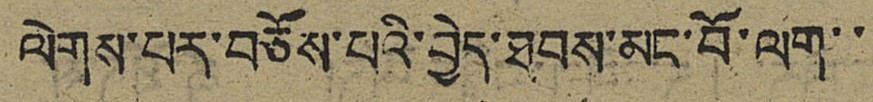ལེགས་པར་བཅོས་པའི་བྱེད་ཐབས་མང་བོ་ལག་་
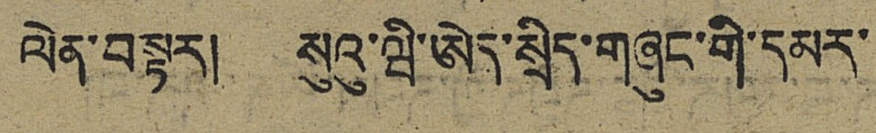ལེན་བསྟར། སུའུ་ཝི་ཨེད་སྲིད་གཞུང་གི་དམར་
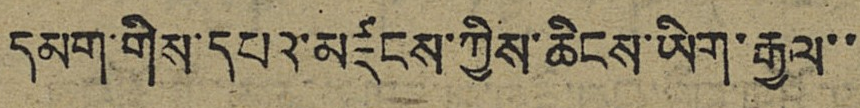དམག་གིས་དཔའ་མཛངས་ཀྱིས་ཆིངས་ཡིག་རྒྱལ་་
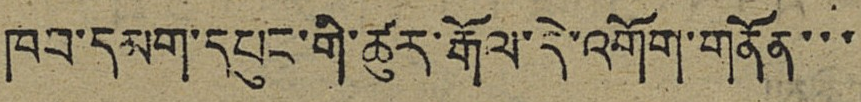ཁབ་དམག་དཔུང་གི་ཚུར་རྒོལ་དེ་འགོག་གནོན་་་
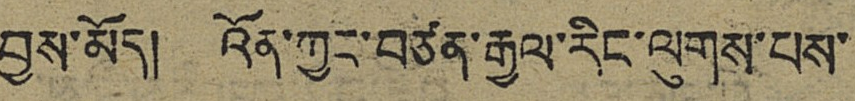བྱས་མོད། འོན་ཀྱང་བཙན་རྒྱལ་རིང་ལུགས་པས་
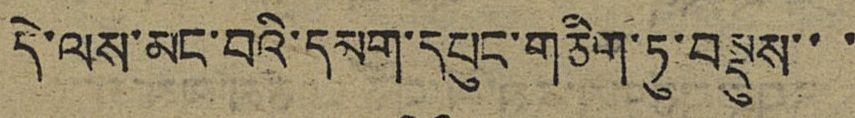དེ་ལས་མང་བའི་དམག་དཔུང་གཅིག་ཏུ་བསྡུས་་་
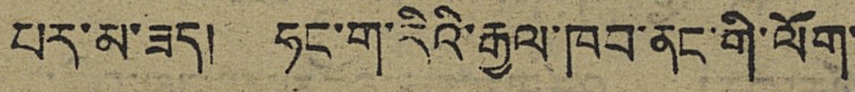པར་མ་ཟད། ཧང་ག་རིའི་རྒྱལ་ཁབ་ནང་གི་ལོག་
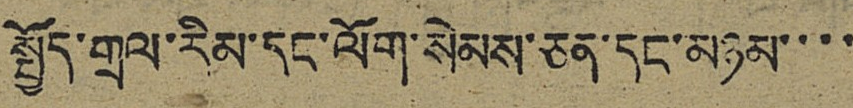སྤྱོད་གྲལ་རིམ་དང་ལོག་སེམས་ཅན་དང་མཉམ་་་་
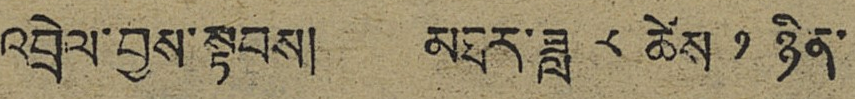འབྲེལ་བྱས་སྟབས། མཐར་ཟླ ༨ ཚེས ༡ ཉིན་
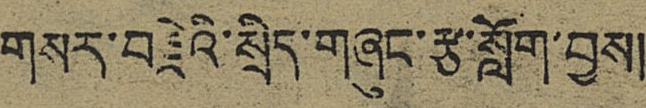གསར་བརྗེའི་སྲིད་གཞུང་རྩ་སློག་བྱས།
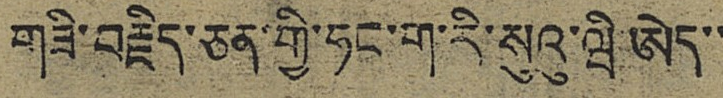གཟི་བརྗིད་ཅན་གྱི་ཧང་ག་རི་སུའུ་ཝི་ཨེད་་
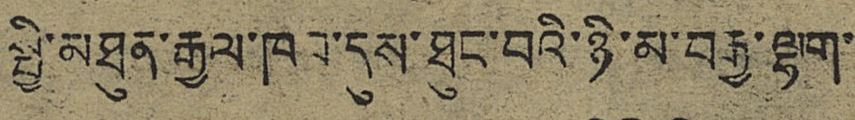སྤྱི་མཐུན་རྒྱལ་ཁབ་དུས་ཐུང་བའི་ཉི་མ་བརྒྱ་ལྷག་
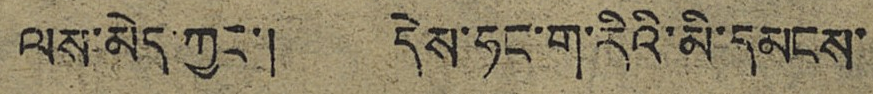ལས་མེད་ཀྱང་། དེས་ཧང་ག་རིའི་མི་དམངས་
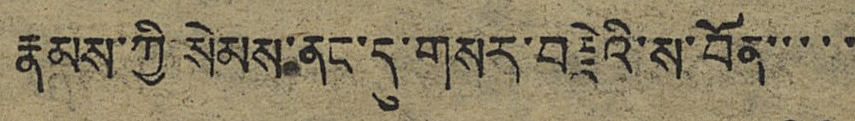རྣམས་ཀྱི སེམས་ནང་དུ་གསར་བརྗེའི་ས་བོན་་་་་
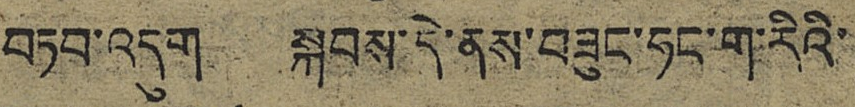བཏབ་འདུག སྐབས་དེ་ནས་བཟུང་ཧང་ག་རིའི་
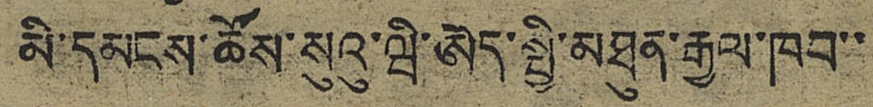མི་དམངས་ཚོས་སུའུ་ཝི་ཨེད་སྤྱི་མཐུན་རྒྱལ་ཁབ་་
